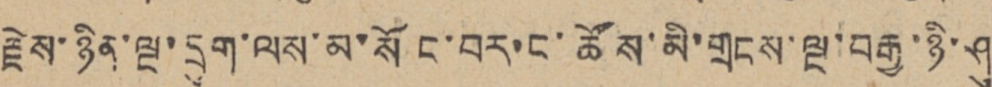རྗེས་ཉིན་ལྔ་དྲུག་ལས་མ་སོང་བར་ང་ཚོས་མི་གྲངས་ལྔ་བརྒྱ་ཉི་ཤུ་
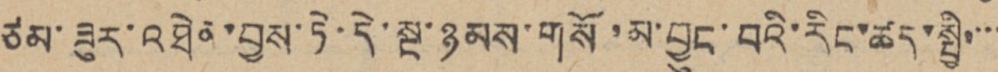ཙམ་ཟུར་འཐེན་བྱས་ཏེ་དེ་སྔ་ཉམས་གསོ་མ་བྱུང་བའི་རིང་ཚད་སྤྱི་་་་
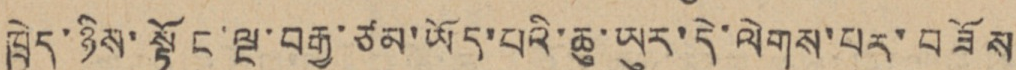ཁྲེད་ཉིས་སྟོང་ལྔ་བརྒྱ་ཙམ་ཡོད་པའི་ཆུ་ཡུར་དེ་ལེགས་པར་བཟོས
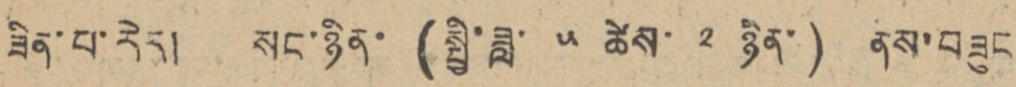ཟིན་པ་རེད། སང་ཉིན་ (སྤྱི་ཟླ་ ༥ ཚེས་ ༢ ཉིན་) ནས་བཟུང
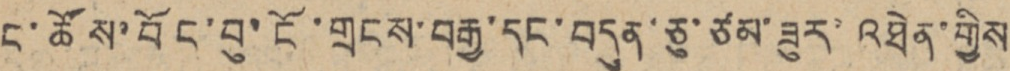ང་ཚོས་བོང་བུ་ངོ་གྲངས་བརྒྱ་དང་བདུན་ཅུ་ཙམ་ཟུར་འཐེན་གྱིས
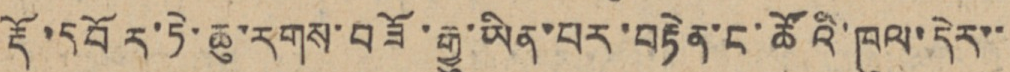རྡོ་དབོར་ཏེ་ཆུ་རགས་བཟོ་རྒྱུ་ཡིན་པར་བརྟེན་ང་ཚོའི་ཁུལ་དེར་་
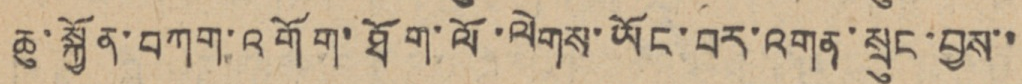ཆུ་སྐྱོན་བཀག་འགོག་ཐོག་ལོ་ལེགས་ཡོང་བར་འགན་སྲུང་བྱས་་
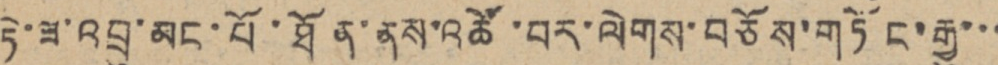ཏེ་ཟ་འབྲུ་མང་པོ་ཐོན་ནས་འཚོ་བར་ལེགས་བཅོས་གཏོང་རྒྱུ་་་
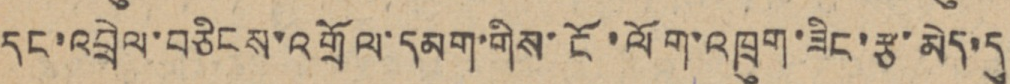དང་འབྲེལ་བཅིངས་འགྲོལ་དམག་གིས་ངོ་ལོག་འཁྲུག་ཟིང་རྩ་མེད་དུ
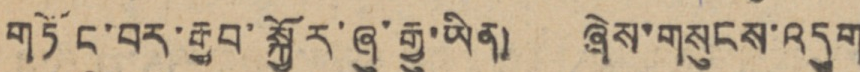གཏོང་བར་རྒྱབ་སྐྱོར་ཞུ་རྒྱུ་ཡིན། ཞེས་གསུངས་འདུག
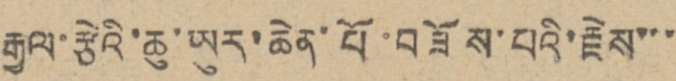རྒྱལ་རྩེའི་ཆུ་ཡུར་ཆེན་པོ་བཟོས་པའི་རྗེས་་་
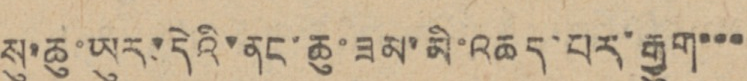སུ་ཆུ་ཡུར་དེའི་ནང་ཆུ་ཟམ་མི་འཆད་པར་རྒྱུག་་་
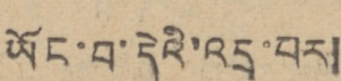ཡོང་བ་དེའི་འདྲ་བར།
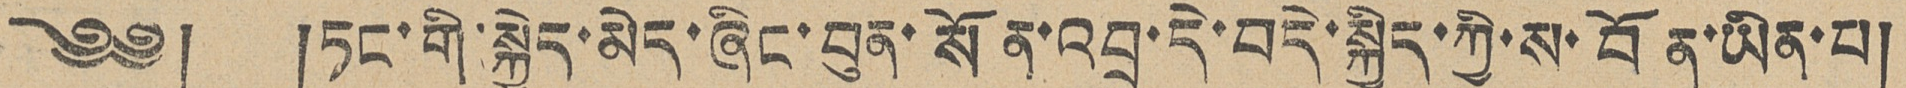༄༅། །ཏང་གི་སྐྱེད་མེད་ཞིང་བུན་སོན་འབྲུ་དེ་བདེ་སྐྱིད་ཀྱི་ས་བོན་ཡིན་པ།
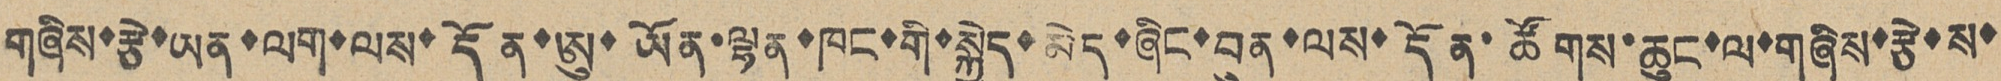གཞིས་རྩེ་ཡན་ལག་ལས་དོན་ཨུ་ཡོན་ལྷན་ཁང་གི་སྐྱེད་མེད་ཞིང་བུན་ལས་དོན་ཚོགས་ཆུང་ལ་གཞིས་རྩེ་ས་
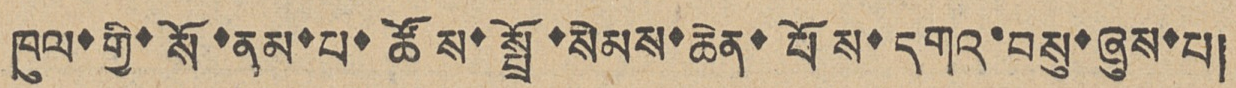ཁུལ་གྱི་སོ་ནམ་པ་ཚོས་སྤྲོ་སེམས་ཆེན་པོས་དགའ་བསུ་ཞུས་པ།
